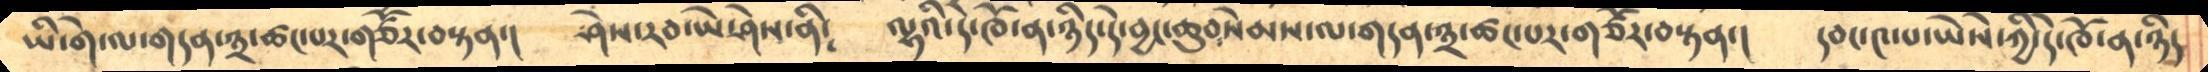ཡི་གེ་ལ་གདན་༣་ཚང་པར་གཙོར་བསྟན་།     ཤེས་རབ་ཡེ་ཤེས་ནི༴    ལྷའི་དེ་ཁོ་ན་ཉིད་དེ་བྱང་ཆུབ་སེམས་ལ་གདན་༣་ཚང་པར་གཙོར་བསྟན་།   དབང་༤་པ་ཡཻས་ཀྱི་དེ་ཁོ་ན་ཉིད
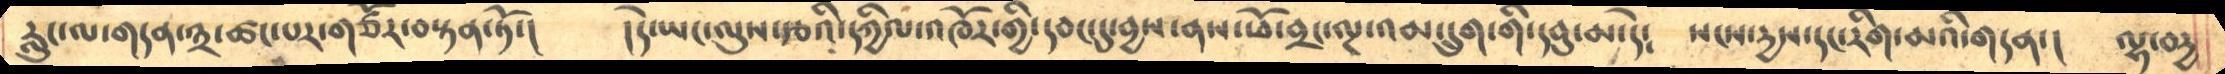རླུང་ལ་གདན་༣་ཚང་པར་གཙོར་བསྟན་ཏོ་།      །དེ་ཡང་ལུས་རྩའི་དཀྱིལ་འཁོར་གྱི་དབང་དུ་བྱས་ནས་ཕོ་བྲང་ལྔ་འམ་དྲུག་གི་དབུ་མ་དེ༴     སངས་དྱས་དང་རིག་མའི་གདན་།    ལྷ་བདྱ
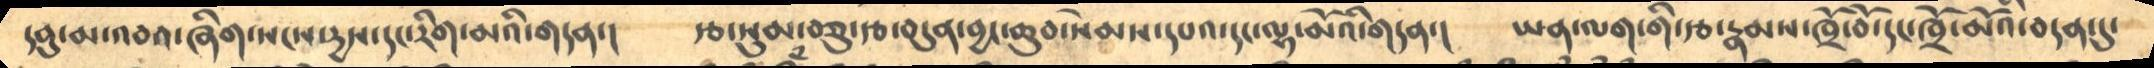དབུ་མ་འབའ་ཞིག་སངས་དྱས་དང་རིག་མའི་གདན་།     རྩ་སུམ་བཅུ་རྩ་བདུན་བྱང་ཆུབ་སེམས་དཔའ་དང་ལྷ་མོའི་གདན་།   ཡན་ལག་གི་རྩ་རྣམས་ཁྲོ་བོ་དང་ཁྲོ་མོའི་བདན་དུ་
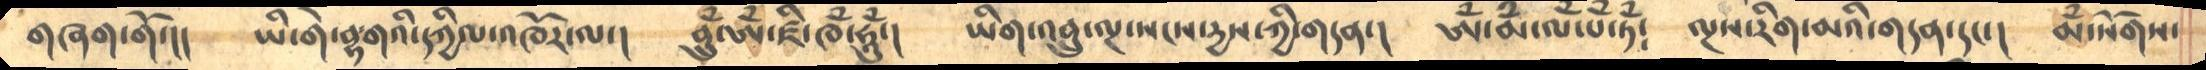གཞག་གོ་།།     ཡི་གེ་ལྷགའི་དཀྱིལ་འཁོར་ལ་།    བྲུཾ་ཨོཾ་ཛི་ཁཾ་ཧཱུཾ་།     ཡིག་འབྲུ་ལྔ་སངས་དྱས་ཀྱི་གདན་།    ཨོཾ་མཾ་ལཾ་པཾ་ཏཾ༴   ལྔས་རིག་མའི་གདན་དང་།   མཾ་སོགས་
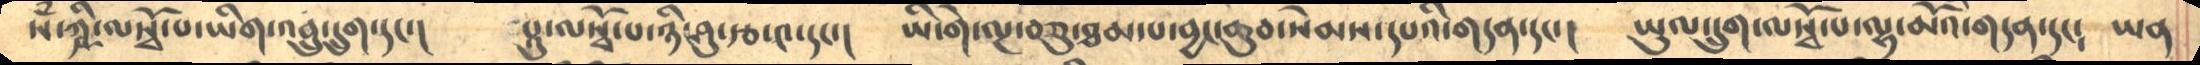སཾ་ཀྵི་ལསྭོ་པ་ཡིག་འབྲུ་དྲུག་དང་།    པཱུ་ལསྭོ་པ་ཉི་ཤུ་རྩ་༤་དང་།    ཡི་གེ་ལྔ་བཅུ་ཐམ་པ་བྱང་ཆུབ་སེམས་དཔའི་གདན་དང་།    ཡུལ་དྲུག་ལསྭོ་པ་ལྷ་མོའི་གདན་དང་   ཡན
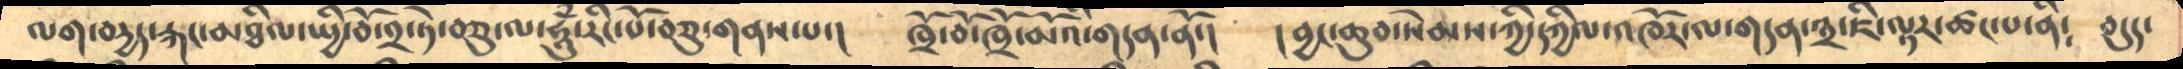ལག་བདྱད་རྐང་མཐིལ་སྤྱི་བོ་༢་ཏེ་བཅུ་ལ་ཧཱུཾ་རིང་པོ་བཅུ་གནས་པ་།     ཁྲོ་བོ་ཁྲོ་མོའི་གདན་ནོ་།    །བྱང་ཆུབ་སེམས་ཀྱི་དཀྱིལ་འཁོར་ལ་གདན་༣་ཇི་ལྟར་ཚང་པ་ནི༴    བདུད་
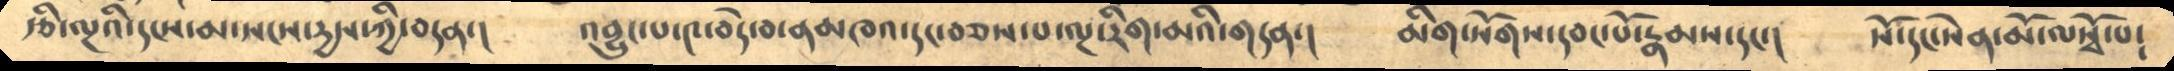རྩི་ལྔའི་དངས་མ་སངས་དྱས་ཀྱི་བདན་།     འབྱུང་པ་༤་བདེ་བ་ནམཁའ་དང་བཅས་པ་ལྔ་རིག་མའི་གདན་།       མིག་སོགས་དབང་པོ་རྣམས་དང་།    སོ་དང་སེན་མོ་ལསྭོ་པ༴
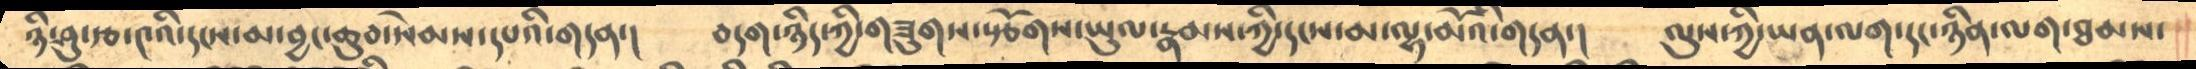ཉི་ཤུ་རྩ་༤འི་དངས་མ་བྱང་ཆུབ་སེམས་དཔའི་གདན་།   བདག་ཉིད་ཀྱི་གཟུགས་སྩོགས་ཡུལ་རྣམས་ཀྱི་དངས་མ་ལྷ་མོའི་གདན་།   ལུས་ཀྱི་ཡན་ལག་དང་ཉིན་ལག་ཐམས་
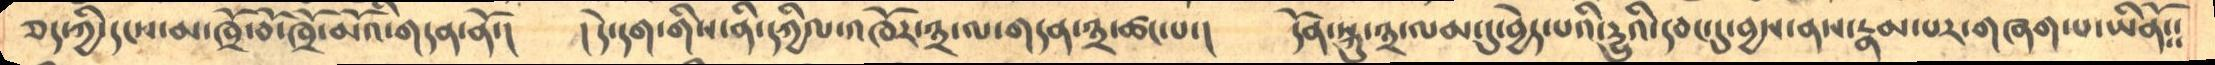ཅད་ཀྱི་དངས་མ་ཁྲོ་བོ་ཁྲོ་མོའི་གདན་ནོ་།     །དེ་དག་གིས་ནི་དཀྱིལ་འཁོར་༣་ལ་གདན་༣་ཚང་པ་།     དོན་སྐུ་༣་ལམ་དུ་བྱེད་པའི་དྱུའི་དབང་དུ་བྱས་ནས་རྣམ་པར་གཞག་པ་ཡིནོ༴༴
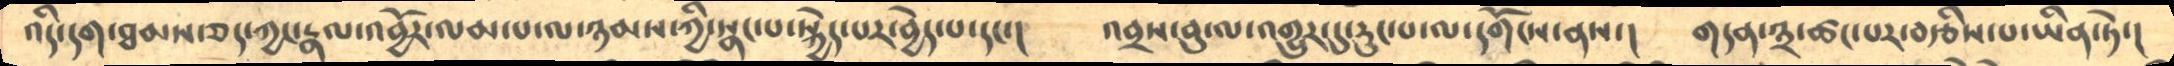འདི་དག་ཐམས་ཅད་ཀྱང་རྣལ་འབྱོར་ལམ་པ་ལ་ཉམས་ཀྱི་སྣང་པ་སྐྱེད་པར་བྱེད་པ་དང་།    འབྲས་བུ་ལ་འགྱུར་དུ་རུང་པ་ལ་དགོངས་ནས་།    གདན་༣་ཚང་པར་བརྩིས་པ་ཡིན་ཏེ་།
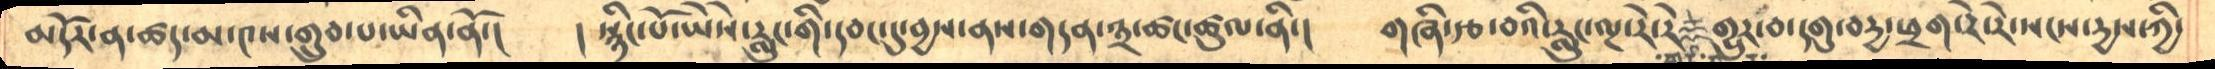མདོར་ན་ཚད་མ་༤ས་གྲུབ་པ་ཡིན་ནོ་།   ། སྙིང་པོ་ཡཻས་རླུང་གི་དབང་དུ་བྱས་ནས་གདན་༣་ཚང་ཚུལ་ནི་།  གཞི་རྩ་བའི་རླུང་ལྔ་རེ་རེ་གྱུར་བ་དགུ་བདྱ་ཕྲག་རེ་རེ་སངས་དྱས་ཀྱི་
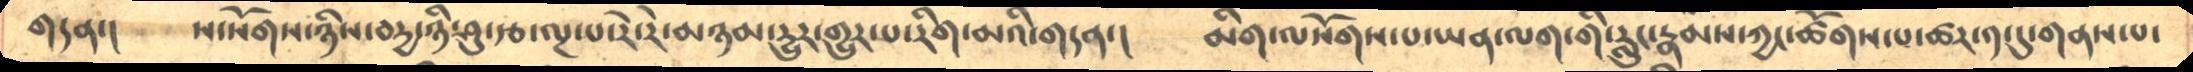གདན་།      ས་སོགས་ཉིས་བདྱ་ཉི་ཤུ་རྩ་ལྔ་པ་རེ་རེ་མཉམ་དྱུར་གྱུར་པ་རིག་མའི་གདན་།   མིག་ལ་སོགས་པ་ཡན་ལག་གི་རླུང་རྣམས་ཀྱང་ཚོགས་པ་ཚར་༡་དུ་གནས་པ་
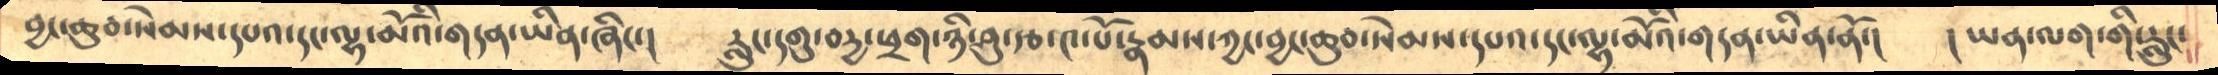བྱང་ཆུབ་སེམས་དཔའ་དང་ལྷ་མོའི་གདན་ཡིན་ཞིང་།     རླུང་དགུ་བདྱ་ཕྲག་ཉི་ཤུ་རྩ་༤་པོ་རྣམས་ཀྱང་བྱང་ཆུབ་སེམས་དཔའ་དང་ལྷ་མོའི་གདན་ཡིན་ནོ་།    །ཡན་ལག་གི་རླུང་
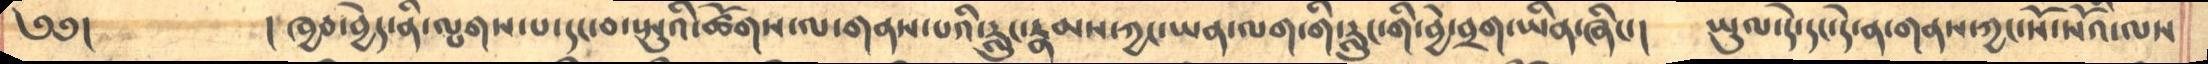༄༅།     །ཁྱབ་བྱེད་ནི་ལྤགས་པ་དང་བ་སྤུའི་ཚོགས་ལ་གནས་པའི་རླུང་རྣམས་ཀྱང་ཡན་ལག་གི་རླུང་གི་བྱེ་བྲག་ཡིན་ཞིང་།    ཡུལ་དེ་དང་དེ་ན་གནས་ཀྱང་སོ་སོའི་ལས
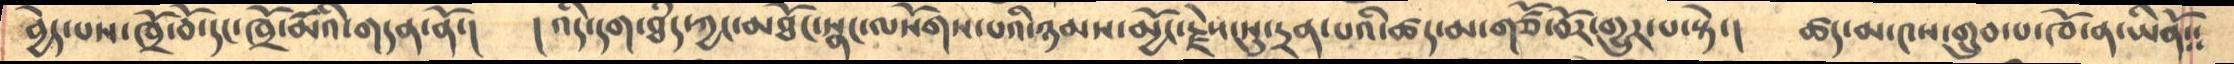བྱེད་པས་ཁྲོ་བོ་དང་ཁྲོ་མོའི་གདན་ནོ་།      །འདི་དག་ཐཾད་ཀྱང་མཐོང་སྣང་ལསོགས་པའི་ཉམས་མྱོང་རྗེས་སུ་དྲན་པའི་ཚད་མ་གཙོ་བོར་གྱུར་པ་སྟེ་།    ཚད་མ་༤ས་གྲུབ་པ་ཁོ་ན་ཡིནོ༴༴
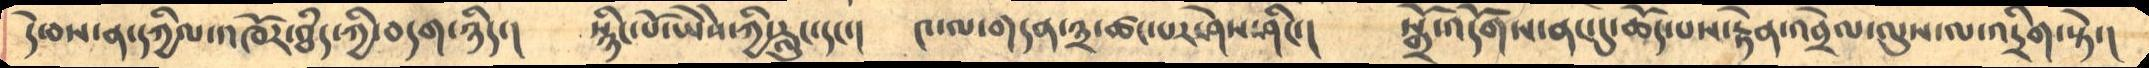དེ་བས་ན་དཀྱིལ་འཁོར་ཐཾད་ཀྱི་བདག་ཉིད་།     སྙིང་པོ་ཡེེས་ཀྱི་རླུང་དང་།    ༤་ལ་གདན་༣་ཚང་པར་ཤེས་ཤིང་།    སྒྲོ་འདོགས་ནང་དུ་ཆོད་པས་རྟེན་འབྲེལ་ལུས་ལ་འདྲིག་སྟེ་།
